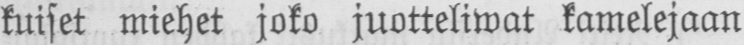kuiset miehet joko juotteliwat kamelejaan
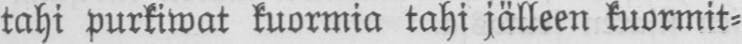tahi purkiwat kuormia tahi jälleen kuormit-
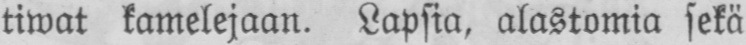tiwat kamelejaan. Lapsia, alastomia sekä
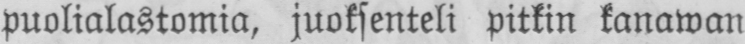puolialastomia, juoksenteli pitkin kanawan
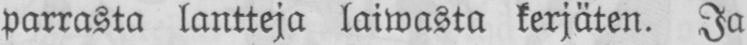parrasta lantteja laiwasta kerjäten. Ja
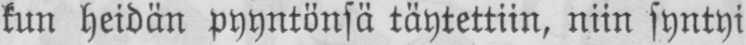kun heidän pyyntönsä täytettiin, niin syntyi
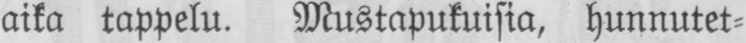aika tappelu. Mustapukuisia, hunnutet-
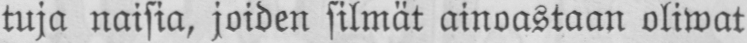tuja naisia, joiden silmät ainoastaan oliwat
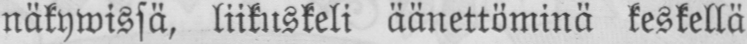näkywissä, liikuskeli äänettöminä keskellä
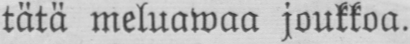tätä meluawaa joukkoa.
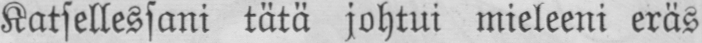Katsellessani tätä johtui mieleeni eräs
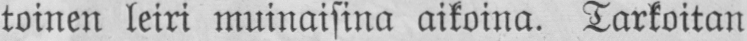toinen leiri muinaisina aikoina. Tarkoitan
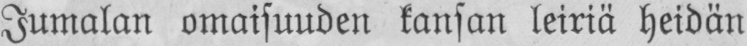Jumalan omaisuuden kansan leiriä heidän
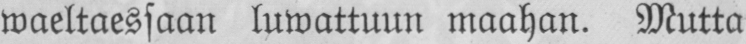waeltaessaan luwattuun maahan. Mutta
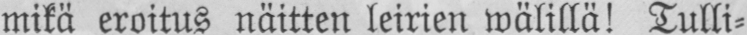mikä eroitus näitten leirien wälillä! Tulli-
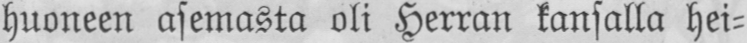huoneen asemasta oli Herran kansalla hei-
